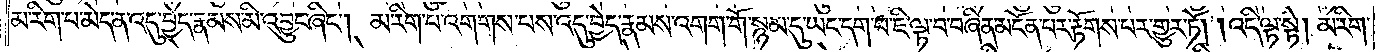མ་རིག་པ་མེད་ན་འདུ་བྱེད་རྣམས་མི་འབྱུང་ཞིང༌། མ་རིག་པ་འགགས་པས་འདུ་བྱེད་རྣམས་འགག་གོ་སྙམ་དུ་ཡང་དག་པ་ཇི་ལྟ་བ་བཞིན་མངོན་པར་རྟོགས་པར་གྱུར་ཏོ། །འདི་ལྟ་སྟེ། མ་རིག་
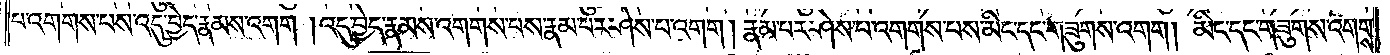པ་འགགས་པས་འདུ་བྱེད་རྣམས་འགག །འདུ་བྱེད་རྣམས་འགགས་པས་རྣམ་པར་ཤེས་པ་འགག །རྣམ་པར་ཤེས་པ་འགགས་པས་མིང་དང་གཟུགས་འགག། མིང་དང་གཟུགས་འགགས་
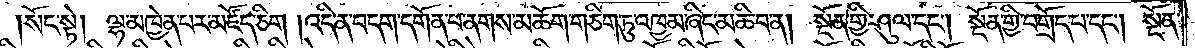སོང་སྟེ། ལྷ་མཁྱེན་པར་མཛོད་ཅིག །འདི་ན་བདག་དགོན་པ་ནགས་མཆོག་གཅིག་ཏུ་འཁྱམ་ཞིང་མཆི་བ་ན། སྔོན་གྱི་ཤུལ་དང༌། སྔོན་གྱི་བགྲོད་པ་དང༌། སྔོན་
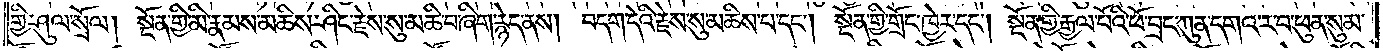གྱི་ཤུལ་སྲོལ། སྔོན་གྱི་མི་རྣམས་མཆིས་ཤིང་རྗེས་སུ་མཆི་བ་ཞིག་རྙེད་ནས། བདག་དེའི་རྗེས་སུ་མཆིས་པ་དང༌། སྔོན་གྱི་གྲོང་ཁྱེར་དང༌། སྔོན་གྱི་རྒྱལ་པོའི་ཕོ་བྲང་ཀུན་དགའ་ར་བ་ཕུན་སུམ་
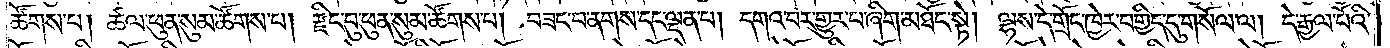ཚོགས་པ། ཚལ་ཕུན་སུམ་ཚོགས་པ། རྫིང་བུ་ཕུན་སུམ་ཚོགས་པ། བཟང་བ་ནགས་དང་ལྡན་པ། དགའ་བར་གྱུར་བ་ཞིག་མཐོང་སྟེ། ལྷས་དེ་གྲོང་ཁྱེར་བགྱིད་དུ་གསོལ་ལ། དེ་རྒྱལ་པོའི་
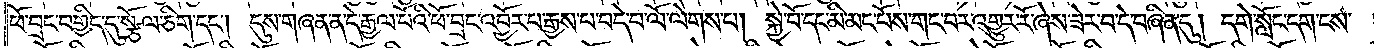ཕོ་བྲང་བགྱིད་དུ་སྩོལ་ཅིག་དང༌། དུས་གཞན་ན་དེ་རྒྱལ་པོའི་ཕོ་བྲང་འབྱོར་པ་རྒྱས་པ་བདེ་བ་ལོ་ལེགས་པ། སྐྱེ་བོ་དང་མི་མང་པོས་གང་བར་འགྱུར་རོ་ཞེས་ཟེར་བ་དེ་བཞིན་དུ། དགེ་སློང་དག་ངས་
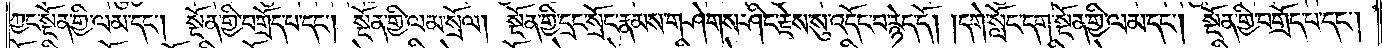ཀྱང་སྔོན་གྱི་ལམ་དང༌། སྔོན་གྱི་བགྲོད་པ་དང༌། སྔོན་གྱི་ལམ་སྲོལ། སྔོན་གྱི་དྲང་སྲོང་རྣམས་གཤེགས་ཤིང་རྗེས་སུ་འདོང་བ་རྙེད་དོ། །དགེ་སློང་དག་སྔོན་གྱི་ལམ་དང༌། སྔོན་གྱི་བགྲོད་པ་དང༌།
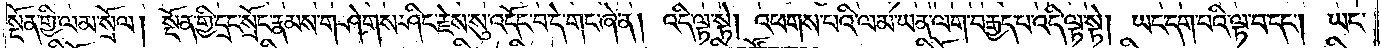སྔོན་གྱི་ལམ་སྲོལ། སྔོན་གྱི་དྲང་སྲོང་རྣམས་གཤེགས་ཤིང་རྗེས་སུ་འདོང་བ་དེ་གང་ཞེ་ན། འདི་ལྟ་སྟེ། འཕགས་པའི་ལམ་ཡན་ལག་བརྒྱད་པ་འདི་ལྟ་སྟེ། ཡང་དག་པའི་ལྟ་བ་དང༌། ཡང་
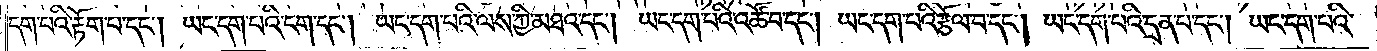དག་པའི་རྟོག་པ་དང༌། ཡང་དག་པའི་ངག་དང༌། ཡང་དག་པའི་ལས་ཀྱི་མཐའ་དང༌། ཡང་དག་པའི་འཚོ་བ་དང༌། ཡང་དག་པའི་རྩོལ་བ་དང༌། ཡང་དག་པའི་དྲན་པ་དང༌། ཡང་དག་པའི་
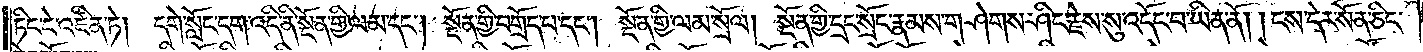ཏིང་ངེ་འཛིན་ཏེ། དགེ་སློང་དག་འདི་ནི་སྔོན་གྱི་ལམ་དང༌། སྔོན་གྱི་བགྲོད་པ་དང༌། སྔོན་གྱི་ལམ་སྲོལ། སྔོན་གྱི་དྲང་སྲོང་རྣམས་གཤེགས་ཤིང་རྗེས་སུ་འདོང་བ་ཡིན་ནོ། །ངས་དེར་སོན་ཅིང་
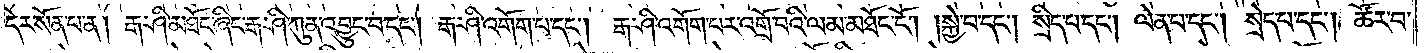དེར་སོན་པ་ན། རྒ་ཤི་མཐོང་ཞིང་རྒ་ཤི་ཀུན་འབྱུང་བ་དང༌། རྒ་ཤི་འགོག་པ་དང༌། རྒ་ཤི་འགོག་པར་འགྲོ་བའི་ལམ་མཐོང་ངོ༌། །སྐྱེ་བ་དང༌། སྲིད་པ་དང༌། ལེན་པ་དང༌། སྲེད་པ་དང༌། ཚོར་བ་
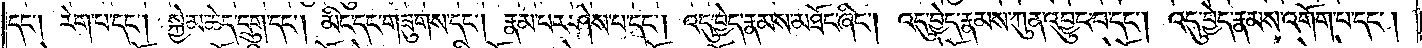དང༌། རེག་པ་དང༌། སྐྱེ་མཆེད་དྲུག་དང༌། མིང་དང་གཟུགས་དང༌། རྣམ་པར་ཤེས་པ་དང༌། འདུ་བྱེད་རྣམས་མཐོང་ཞིང༌། འདུ་བྱེད་རྣམས་ཀུན་འབྱུང་བ་དང༌། འདུ་བྱེད་རྣམས་འགོག་པ་དང༌།
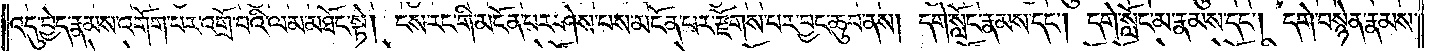འདུ་བྱེད་རྣམས་འགོག་པར་འགྲོ་བའི་ལམ་མཐོང་སྟེ། ངས་རང་གི་མངོན་པར་ཤེས་པས་མངོན་པར་རྫོགས་པར་བྱང་ཆུབ་ནས། དགེ་སློང་རྣམས་དང༌། དགེ་སློང་མ་རྣམས་དང༌། དགེ་བསྙེན་རྣམས་
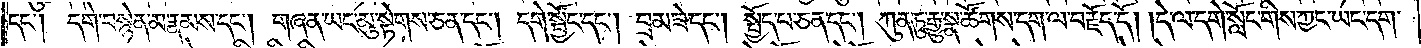དང༌། དགེ་བསྙེན་མ་རྣམས་དང༌། གཞན་ཡང་མུ་སྟེགས་ཅན་དང༌། དགེ་སྦྱོང་དང༌། བྲམ་ཟེ་དང༌། སྤྱོད་པ་ཅན་དང༌། ཀུན་ཏུ་རྒྱུ་སྣ་ཚོགས་དག་ལ་བརྗོད་དོ། །དེ་ལ་དགེ་སློང་གིས་ཀྱང་ཡང་དག་
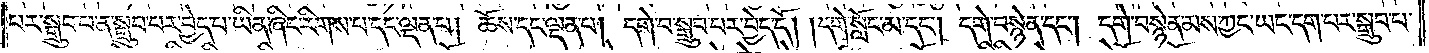པར་སྒྲུབ་པ་ན་སྒྲུབ་པར་བྱེད་པ་ཡིན་ཞིང་རིགས་པ་དང་ལྡན་པ། ཆོས་དང་ལྡན་པ། དགེ་བ་སྒྲུབ་པར་བྱེད་དོ། །དགེ་སློང་མ་དང༌། དགེ་བསྙེན་དང༌། དགེ་བསྙེན་མས་ཀྱང་ཡང་དག་པར་སྒྲུབ་པ་
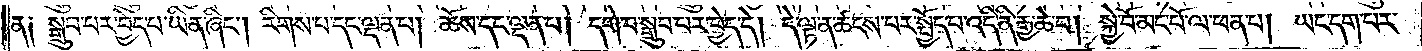ན ༑ སྒྲུབ་པར་བྱེད་པ་ཡིན་ཞིང༌། རིགས་པ་དང་ལྡན་པ། ཆོས་དང་ལྡན་པ། དགེ་བ་སྒྲུབ་པར་བྱེད་དེ། དེ་ལྟ་ན་ཚངས་པར་སྤྱོད་པ་འདི་ནི་རྒྱ་ཆེ་བ། སྐྱེ་བོ་མང་པོ་ལ་ཕན་པ། ཡང་དག་པར་
